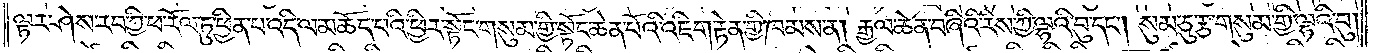ལྟར་ཤེས་རབ་ཀྱི་ཕ་རོལ་ཏུ་ཕྱིན་པ་འདི་ལ་མཆོད་པའི་ཕྱིར་སྟོང་གསུམ་གྱི་སྟོང་ཆེན་པོའི་འཇིག་རྟེན་གྱི་ཁམས་ན། རྒྱལ་ཆེན་བཞིའི་རིས་ཀྱི་ལྷའི་བུ་དང༌། སུམ་ཅུ་རྩ་གསུམ་གྱི་ལྷའི་བུ།
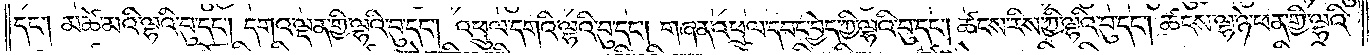དང༌། མཚེ་མའི་ལྷའི་བུ་དང༌། དགའ་ལྡན་གྱི་ལྷའི་བུ་དང༌། འཕྲུལ་དགའི་ལྷའི་བུ་དང༌། གཞན་འཕྲུལ་དབང་བྱེད་ཀྱི་ལྷའི་བུ་དང༌། ཚངས་རིས་ཀྱི་ལྷའི་བུ་དང༌། ཚངས་ལྷ་ཉེ་ཕན་གྱི་ལྷའི་
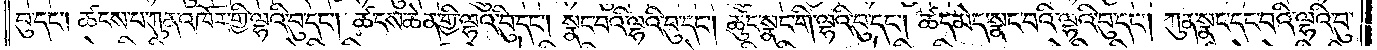བུ་དང༌། ཚངས་པ་ཀུན་འཁོར་གྱི་ལྷའི་བུ་དང༌། ཚངས་ཆེན་གྱི་ལྷའི་བུ་དང༌། སྣང་བའི་ལྷའི་བུ་དང༌། ཆུང་སྣང་གི་ལྷའི་བུ་དང༌། ཚད་མེད་སྣང་བའི་ལྷའི་བུ་དང༌། ཀུན་སྣང་དང་བའི་ལྷའི་བུ་
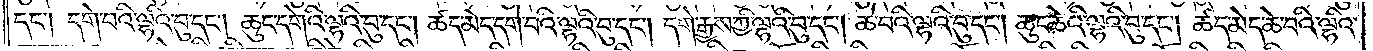དང༌། དགེ་བའི་ལྷའི་བུ་དང༌། ཆུང་དགེའི་ལྷའི་བུ་དང༌། ཚད་མེད་དགེ་བའི་ལྷའི་བུ་དང༌། དགེ་རྒྱས་ཀྱི་ལྷའི་བུ་དང༌། ཆེ་བའི་ལྷའི་བུ་དང༌། ཆུང་ཆེའི་ལྷའི་བུ་དང༌། ཚད་མེད་ཆེ་བའི་ལྷའི་
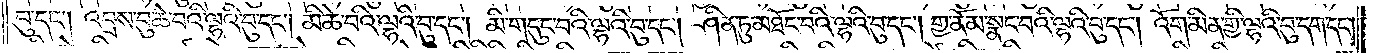བུ་དང༌། འབྲས་བུ་ཆེ་བའི་ལྷའི་བུ་དང༌། མི་ཆེ་བའི་ལྷའི་བུ་དང༌། མི་གདུང་བའི་ལྷའི་བུ་དང༌། ཤིན་ཏུ་མཐོང་བའི་ལྷའི་བུ་དང༌། གྱ་ནོམ་སྣང་བའི་ལྷའི་བུ་དང༌། འོག་མིན་གྱི་ལྷའི་བུ་དག་དང༌།
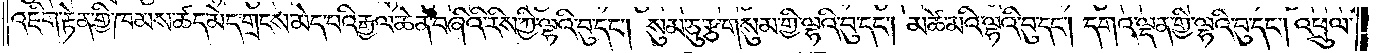འཇིག་རྟེན་གྱི་ཁམས་ཚད་མེད་གྲངས་མེད་པའི་རྒྱལ་ཆེན་བཞིའི་རིས་ཀྱི་ལྷའི་བུ་དང༌། སུམ་ཅུ་རྩ་གསུམ་གྱི་ལྷའི་བུ་དང༌། མཚེ་མའི་ལྷའི་བུ་དང༌། དགའ་ལྡན་གྱི་ལྷའི་བུ་དང་། འཕྲུལ་
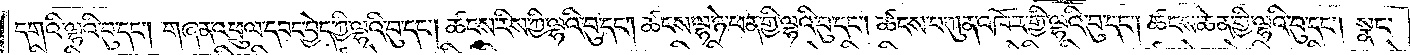དགའི་ལྷའི་བུ་དང༌། གཞན་འཕྲུལ་དབང་བྱེད་ཀྱི་ལྷའི་བུ་དང༌། ཚངས་རིས་ཀྱི་ལྷའི་བུ་དང༌། ཚངས་ལྷ་ཉེ་ཕན་གྱི་ལྷའི་བུ་དང༌། ཚངས་པ་ཀུན་འཁོར་གྱི་ལྷའི་བུ་དང༌། ཚངས་ཆེན་གྱི་ལྷའི་བུ་དང༌། སྣང་
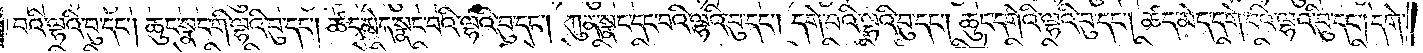བའི་ལྷའི་བུ་དང༌། ཆུང་སྣང་གི་ལྷའི་བུ་དང༌། ཚད་མེད་སྣང་བའི་ལྷའི་བུ་དང༌། ཀུན་སྣང་དང་བའི་ལྷའི་བུ་དང༌། དགེ་བའི་ལྷའི་བུ་དང༌། ཆུང་དགེའི་ལྷའི་བུ་དང༌། ཚད་མེད་དགེ་བའི་ལྷའི་བུ་དང༌། དགེ་
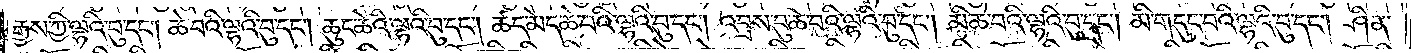རྒྱས་ཀྱི་ལྷའི་བུ་དང༌། ཆེ་བའི་ལྷའི་བུ་དང༌། ཆུང་ཆེའི་ལྷའི་བུ་དང༌། ཚད་མེད་ཆེ་བའི་ལྷའི་བུ་དང༌། འབྲས་བུ་ཆེ་བའི་ལྷའི་བུ་དང༌། མི་ཆེ་བའི་ལྷའི་བུ་དང༌། མི་གདུང་བའི་ལྷའི་བུ་དང༌། ཤིན་
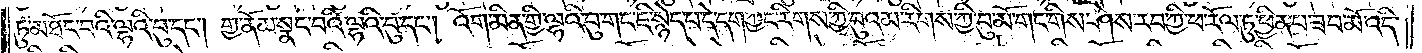ཏུ་མཐོང་བའི་ལྷའི་བུ་དང༌། གྱ་ནོམ་སྣང་བའི་ལྷའི་བུ་དང༌། འོག་མིན་གྱི་ལྷའི་བུ་གང་ཇི་སྙེད་པ་དེ་དག་ཀྱང་རིགས་ཀྱི་བུའམ་རིགས་ཀྱི་བུ་མོ་གང་གིས་ཤེས་རབ་ཀྱི་ཕ་རོལ་ཏུ་ཕྱིན་པ་ཟབ་མོ་འདི་
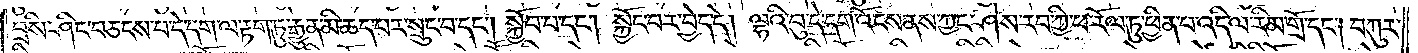བྲིས་ཤིང་བཅངས་པ་དེ་དག་ལ་རྟག་ཏུ་རྒྱུན་མི་ཆད་པར་བསྲུང་བ་དང༌། སྐྱོབ་པ་དང༌། སྐྱོང་བར་བྱེད་དེ། ལྷའི་བུ་དེ་དག་འོངས་ནས་ཀྱང་ཤེས་རབ་ཀྱི་ཕ་རོལ་ཏུ་ཕྱིན་པ་འདི་ལ་རིམ་གྲོ་དང༌། བཀུར་
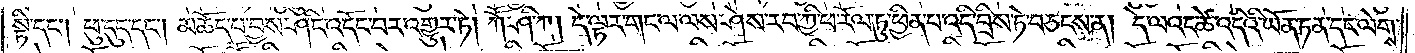སྟི་དང༌། ཕུ་དུད་དང༌། མཆོད་པ་བྱས་ཤིང་འདོང་བར་འགྱུར་ཏེ། ཀཽ་ཤི་ཀ། དེ་ལྟར་གང་ལ་ལས་ཤེས་རབ་ཀྱི་ཕ་རོལ་ཏུ་ཕྱིན་པ་འདི་བྲིས་ཏེ་བཅངས་ན། དེ་ལའང་ཚེ་འདིའི་ཡོན་ཏན་དང་ལེགས་
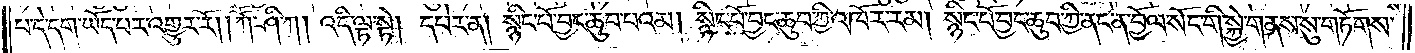པ་དེ་དག་ཡོད་པར་འགྱུར་རོ། །ཀཽ་ཤི་ཀ། འདི་ལྟ་སྟེ། དཔེར་ན། སྙིང་པོ་བྱང་ཆུབ་པའམ། སྙིང་པོ་བྱང་ཆུབ་ཀྱི་འཁོར་རམ། སྙིང་པོ་བྱང་ཆུབ་ཀྱི་ནང་ན་བྱོལ་སོང་གི་སྐྱེ་གནས་སུ་གཏོགས་
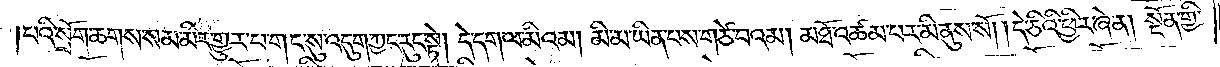པའི་སྲོག་ཆགས་སམ་མིར་གྱུར་པ་གང་སུ་འདུག་ཀྱང་རུང་སྟེ། དེ་དག་ལ་མིའམ། མི་མ་ཡིན་པས་གཙེ་བའམ། མཐོ་འཚམ་པར་མི་ནུས་སོ། །དེ་ཅིའི་ཕྱིར་ཞེ་ན། སྔོན་གྱི་
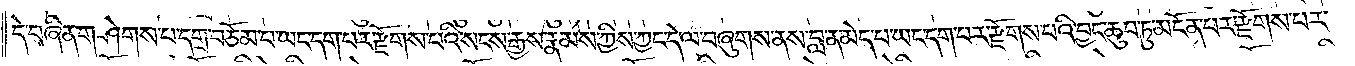དེ་བཞིན་གཤེགས་པ་དགྲ་བཅོམ་པ་ཡང་དག་པར་རྫོགས་པའི་སངས་རྒྱས་རྣམས་ཀྱིས་ཀྱང་དེ་ལ་བཞུགས་ནས་བླ་ན་མེད་པ་ཡང་དག་པར་རྫོགས་པའི་བྱང་ཆུབ་ཏུ་མངོན་པར་རྫོགས་པར་
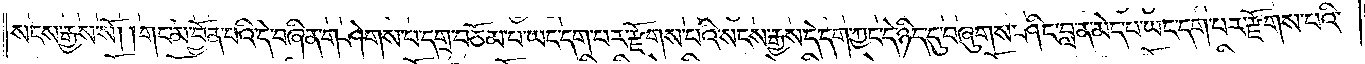སངས་རྒྱས་སོ། །གང་མ་བྱོན་པའི་དེ་བཞིན་གཤེགས་པ་དགྲ་བཅོམ་པ་ཡང་དག་པར་རྫོགས་པའི་སངས་རྒྱས་དེ་དག་ཀྱང་དེ་ཉིད་དུ་བཞུགས་ཤིང་བླ་ན་མེད་པ་ཡང་དག་པར་རྫོགས་པའི་
